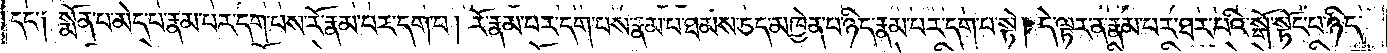དང་༑ སྨོན་པ་མེད་པ་རྣམ་པར་དག་པས་རོ་རྣམ་པར་དག་པ། རོ་རྣམ་པར་དག་པས་རྣམ་པ་ཐམས་ཅད་མཁྱེན་པ་ཉིད་རྣམ་པར་དག་པ་སྟེ། དེ་ལྟར་ན་རྣམ་པར་ཐར་པའི་སྒོ་སྟོང་པ་ཉིད་
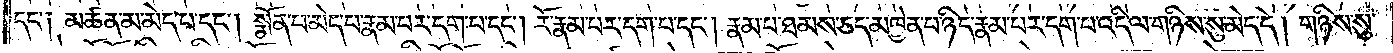དང་༑ མཚན་མ་མེད་པ་དང༌། སྨོན་པ་མེད་པ་རྣམ་པར་དག་པ་དང༌། རོ་རྣམ་པར་དག་པ་དང༌། རྣམ་པ་ཐམས་ཅད་མཁྱེན་པ་ཉིད་རྣམ་པར་དག་པ་འདི་ལ་གཉིས་སུ་མེད་དེ། གཉིས་སུ་
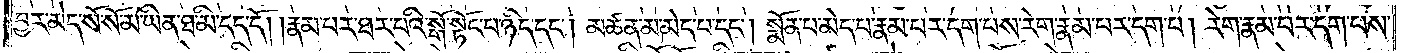བྱར་མེད་སོ་སོ་མ་ཡིན་ཐ་མི་དད་དོ། །རྣམ་པར་ཐར་པའི་སྒོ་སྟོང་པ་ཉིད་དང༌། མཚན་མ་མེད་པ་དང༌། སྨོན་པ་མེད་པ་རྣམ་པར་དག་པས་རེག་རྣམ་པར་དག་པ། རེག་རྣམ་པར་དག་པས་
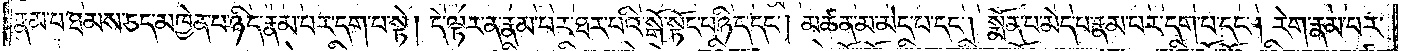རྣམ་པ་ཐམས་ཅད་མཁྱེན་པ་ཉིད་རྣམ་པར་དག་པ་སྟེ། དེ་ལྟར་ན་རྣམ་པར་ཐར་པའི་སྒོ་སྟོང་པ་ཉིད་དང༌། མཚན་མ་མེད་པ་དང༌། སྨོན་པ་མེད་པ་རྣམ་པར་དག་པ་དང༌། རེག་རྣམ་པར་
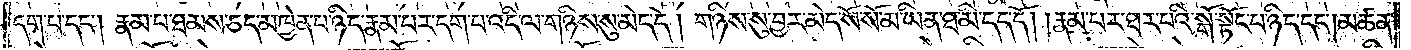དག་པ་དང༌། རྣམ་པ་ཐམས་ཅད་མཁྱེན་པ་ཉིད་རྣམ་པར་དག་པ་འདི་ལ་གཉིས་སུ་མེད་དེ། གཉིས་སུ་བྱར་མེད་སོ་སོ་མ་ཡིན་ཐ་མི་དད་དོ། །རྣམ་པར་ཐར་པའི་སྒོ་སྟོང་པ་ཉིད་དང༌། མཚན་
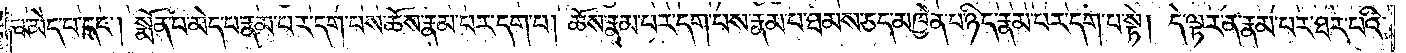མ་མེད་པ་དང༌། སྨོན་པ་མེད་པ་རྣམ་པར་དག་པས་ཆོས་རྣམ་པར་དག་པ། ཆོས་རྣམ་པར་དག་པས་རྣམ་པ་ཐམས་ཅད་མཁྱེན་པ་ཉིད་རྣམ་པར་དག་པ་སྟེ། དེ་ལྟར་ན་རྣམ་པར་ཐར་པའི་
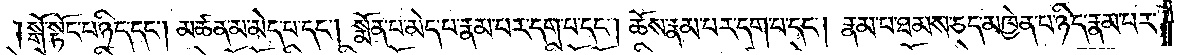སྒོ་སྟོང་པ་ཉིད་དང༌། མཚན་མ་མེད་པ་དང༌། སྨོན་པ་མེད་པ་རྣམ་པར་དག་པ་དང༌། ཆོས་རྣམ་པར་དག་པ་དང༌། རྣམ་པ་ཐམས་ཅད་མཁྱེན་པ་ཉིད་རྣམ་པར་
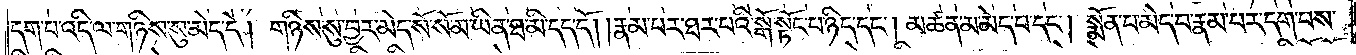དག་པ་འདི་ལ་གཉིས་སུ་མེད་དེ། གཉིས་སུ་བྱར་མེད་སོ་སོ་མ་ཡིན་ཐ་མི་དད་དོ། །རྣམ་པར་ཐར་པའི་སྒོ་སྟོང་པ་ཉིད་དང༌། མཚན་མ་མེད་པ་དང༌། སྨོན་པ་མེད་པ་རྣམ་པར་དག་པས་
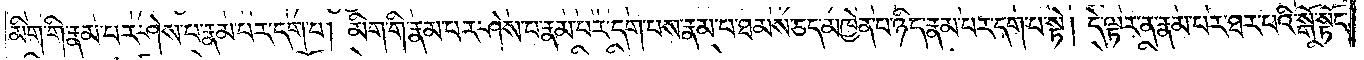མིག་གི་རྣམ་པར་ཤེས་པ་རྣམ་པར་དག་པ། མིག་གི་རྣམ་པར་ཤེས་པ་རྣམ་པར་དག་པས་རྣམ་པ་ཐམས་ཅད་མཁྱེན་པ་ཉིད་རྣམ་པར་དག་པ་སྟེ། དེ་ལྟར་ན་རྣམ་པར་ཐར་པའི་སྒོ་སྟོང་
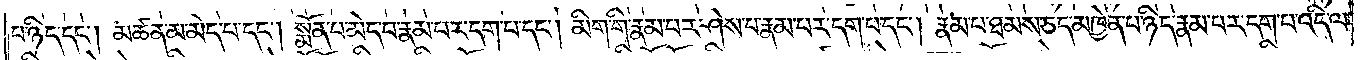པ་ཉིད་དང༌། མཚན་མ་མེད་པ་དང༌། སྨོན་པ་མེད་པ་རྣམ་པར་དག་པ་དང༌། མིག་གི་རྣམ་པར་ཤེས་པ་རྣམ་པར་དག་པ་དང༌། རྣམ་པ་ཐམས་ཅད་མཁྱེན་པ་ཉིད་རྣམ་པར་དག་པ་འདི་ལ་
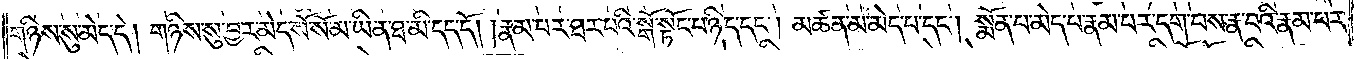གཉིས་སུ་མེད་དེ། གཉིས་སུ་བྱར་མེད་སོ་སོ་མ་ཡིན་ཐ་མི་དད་དོ། །རྣམ་པར་ཐར་པའི་སྒོ་སྟོང་པ་ཉིད་དང༌། མཚན་མ་མེད་པ་དང༌། སྨོན་པ་མེད་པ་རྣམ་པར་དག་པས་རྣ་བའི་རྣམ་པར་
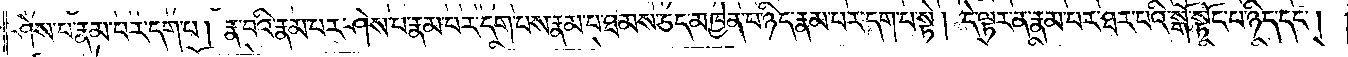ཤེས་པ་རྣམ་པར་དག་པ། རྣ་བའི་རྣམ་པར་ཤེས་པ་རྣམ་པར་དག་པས་རྣམ་པ་ཐམས་ཅད་མཁྱེན་པ་ཉིད་རྣམ་པར་དག་པ་སྟེ། དེ་ལྟར་ན་རྣམ་པར་ཐར་པའི་སྒོ་སྟོང་པ་ཉིད་དང༌།
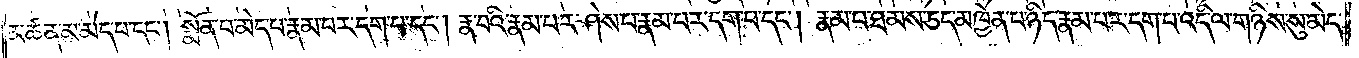མཚན་མ་མེད་པ་དང༌། སྨོན་པ་མེད་པ་རྣམ་པར་དག་པ་དང༌། རྣ་བའི་རྣམ་པར་ཤེས་པ་རྣམ་པར་དག་པ་དང༌། རྣམ་པ་ཐམས་ཅད་མཁྱེན་པ་ཉིད་རྣམ་པར་དག་པ་འདི་ལ་གཉིས་སུ་མེད་
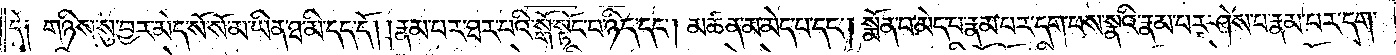དེ༑ གཉིས་སུ་བྱར་མེད་སོ་སོ་མ་ཡིན་ཐ་མི་དད་དོ། །རྣམ་པར་ཐར་པའི་སྒོ་སྟོང་པ་ཉིད་དང༌། མཚན་མ་མེད་པ་དང༌། སྨོན་པ་མེད་པ་རྣམ་པར་དག་པས་སྣའི་རྣམ་པར་ཤེས་པ་རྣམ་པར་དག་
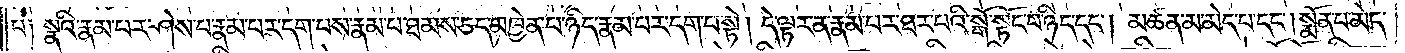པ༑ སྣའི་རྣམ་པར་ཤེས་པ་རྣམ་པར་དག་པས་རྣམ་པ་ཐམས་ཅད་མཁྱེན་པ་ཉིད་རྣམ་པར་དག་པ་སྟེ། དེ་ལྟར་ན་རྣམ་པར་ཐར་པའི་སྒོ་སྟོང་པ་ཉིད་དང༌། མཚན་མ་མེད་པ་དང༌། སྨོན་པ་མེད་
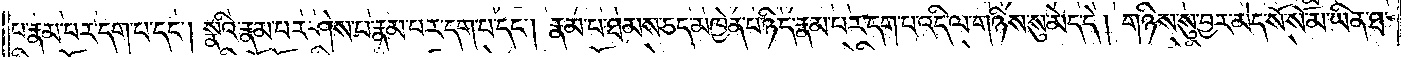པ་རྣམ་པར་དག་པ་དང༌། སྣའི་རྣམ་པར་ཤེས་པ་རྣམ་པར་དག་པ་དང༌། རྣམ་པར་ཐམས་ཅད་མཁྱེན་པ་ཉིད་རྣམ་པར་དག་པ་འདི་ལ་གཉིས་སུ་མེད་དེ། གཉིས་སུ་བྱར་མེད་སོ་སོ་མ་ཡིན་ཐ་
